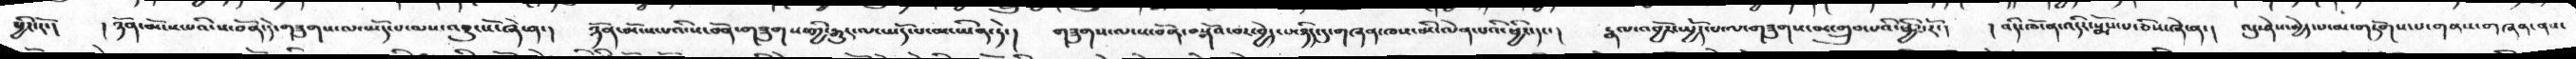ཕྱིར་རོ་།  །ཉོན་མོངས་པའི་ས་བོན་དེ་གཟུགས་ལ་ཡོད་པ་ལས་འབྱུང་ངོ་ཞེ་ན་།  ཉོན་མོངས་པའི་ས་བོན་གཟུགས་ཀྱི་རྒྱུད་ལ་ཡོད་པ་མ་ཡིན་ཏེ་།  གཟུགས་ལ་ས་བོན་བསྒོའ་བར་བྱེད་པ་ཉིད་དུ་གཞན་ཁས་མི་ལེན་པའི་ཕྱིར་དང་།   རྣལ་འབྱོར་སྤྱོད་པ་ལ་གཟུགས་མ་གྲུབ་པའི་ཕྱིར་རོ་།  །འདི་ཁོ་ན་འདིར་སྨོས་པ་ཅིས་ཞེ་ན་།  འདུ་ཤེས་མྱེད་པ་མ་གཏོགས་པ་གནས་གཞན་ནས་
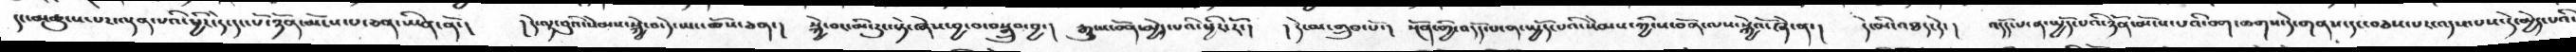དང་མཚུངས་པར་ལྡན་པའི་ཕྱིར་དེ་དང་པོ་ཉོན་མོངས་པ་ཅན་ཡིན་ནོ་།  །དེ་ལྟ་བུའི་སེམས་སྐྱེ་བ་དེ་ཡང་ཆོས་ཅན་།  སྐྱེ་བར་མི་རུང་སྟེ་ཞེས་བྱ་བ་བསྒྲུབ་བྱ་།  རྒྱུ་ས་བོན་མྱེད་པའི་ཕྱིར་རོ་།   །དེ་མ་གྲུབ་པོ་།  སྔོན་གྱི་འདོད་པ་ན་སྤྱོད་པའི་སེམས་ཀྱི་ས་བོན་ལས་སྐྱེའོ་ཞེ་ན་།   དེ་མི་འཐད་དེ་།  འདོད་པ་ན་སྤྱོད་པའི་ཉོན་མོངས་པའི་བག་ཆགས་དེ་གནས་དང་བཅས་པར་འདས་པས་དེ་མྱེད་པའི་
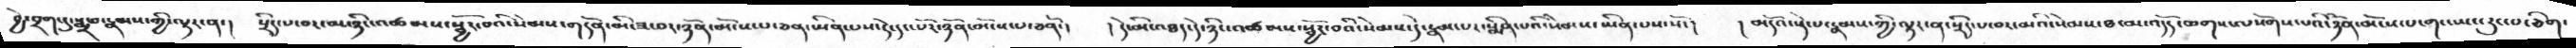བྱེ་བྲག་དུ་སྨྲ་བ་རྣམས་གྱི་ལྟར་ན་།  སྲིད་པ་བར་མ་ཉིང་འཚམས་སྦྱོར་བའི་སེམས་གདོན་མི་ཟ་བར་ཉོན་མོངས་པ་ཅན་ཡིན་པས་དེ་དང་པོར་ཉོན་མོངས་པ་ཅནོ་།  །དེ་མི་འཐད་དེ་ཉིང་འཚམས་སྦྱོར་བའི་སེམས་དེ་རྣམ་པར་སྨིན་པའི་སེམས་ཡིན་པས་སོ་།   །མདོའ་སྡེ་པ་རྣམས་ཀྱི་ལྟར་ན་སྲིད་པ་བར་མའི་སེམས་ཐ་མ་འདོད་ཆགས་ལསོགས་པའི་ཉོན་མོངས་པ་གང་ཡང་རུང་པ་ཅིག་
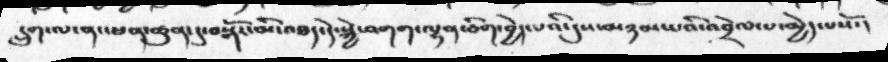དྲུག་ལ་ནང་ཕན་ཚུན་དུ་བསྒོར་མི་འཐད་དེ་སྐྱེ་འགག་ལྷན་ཅིག་བྱེད་པའི་དུས་མཉམ་པའི་འབྲེལ་པ་མྱེད་པསོ་།
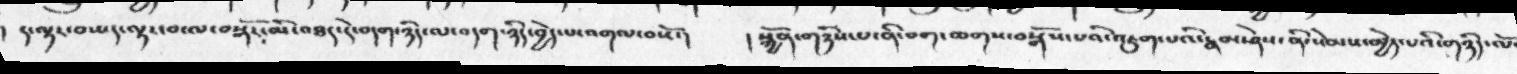།  ད་ལྟར་བཅད་ལྟར་བ་ལ་བསྒོར་མི་འཐད་དེ་བདག་ཉིད་ལ་བདག་ཉིད་བྱེད་པ་འགལ་བསོ་།    ། སྐྱོན་གཉིས་པ་ནི་བག་ཆགས་བསྒོམ་པའི་འཇུག་པའི་རྣམ་ཤེས་ནི་སེམས་མྱེད་པའི་གཉིད་ལོ་
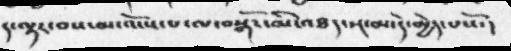ད་ལྟར་བས་མ་འོངས་པ་ལ་བསྒོར་མི་འཐད་སྔ་མ་དེ་མྱེད་པསོ་།
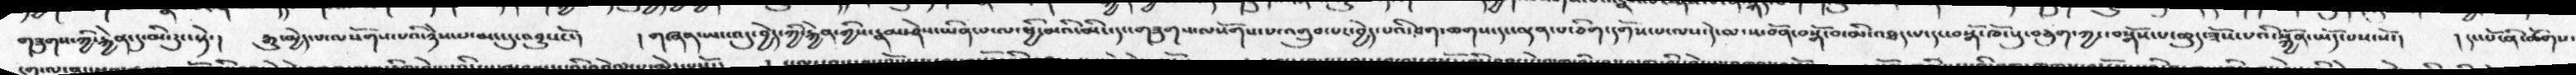གཟུགས་ཀྱི་རྐྱེན་དུ་མི་རུང་སྟེ་།   རྒྱུ་མྱེད་པ་ལསོགས་པའི་ཉེས་པ་མང་དུ་འབྱུང་ངོ་།   ། གཞན་ཡང་འདུ་བྱེད་ཀྱི་རྐྱེན་གྱིས་རྣམ་ཤེས་ཡིན་པ་ལ་ཕྱི་མའི་མིང་དང་གཟུགས་ལསོགས་པ་འགྲུབ་པར་བྱེད་པའི་བག་ཆགས་དང་ལྡན་པ་ཅིག་དགོས་པ་ལས་དེ་ལ་ས་བོན་བསྒོ་བ་མི་འཐད་པ་དང་བསྒོ་ཁོངསུ་བཅུག་ཀྱང་བསྒོས་པ་ཆུད་ཟོས་པའི་སྐྱོན་ཡོད་པས་སོ་།     ། དང་པོ་ནི་ཚོགས་
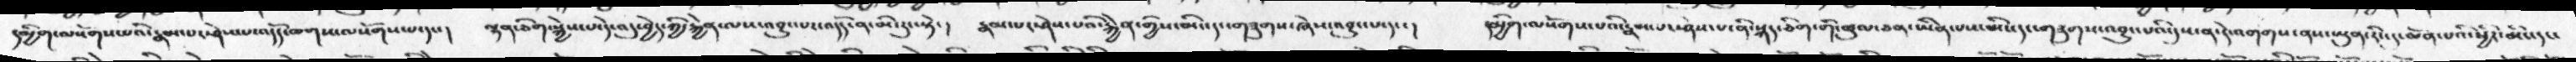དམྱིག་ལསོགས་པའི་རྣམ་པར་ཤེས་པ་འདོད་ཆགས་ལསོགས་པ་དང་།   ལྷན་ཅིག་སྐྱེས་པ་དེ་འདུ་བྱེད་ཀྱི་རྐྱེན་ལས་འབྱུང་བར་འདོད་ན་མི་རུང་སྟེ་།   རྣམ་པར་ཤེས་པའི་རྐྱེན་གྱིས་མིང་དང་གཟུགས་ཞེས་འབྱུང་པ་དང་།  དམྱིག་ལསོགས་པའི་རྣམ་པར་ཤེས་པ་ནི་སྐད་ཅིག་གི་ཚུལ་ཅན་ཡིན་པས་མིང་དང་གཟུགས་འབྱུང་པའི་དུས་ན་དེ་འགགས་ནས་ཡུན་རངི་དུ་ཆེན་པའི་ཕྱིར་མིང་དང་
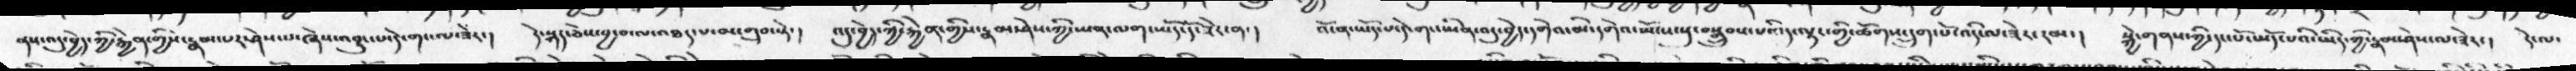ནས་འདུ་བྱེད་ཀྱི་རྐྱེན་གྱིས་རྣམ་པར་ཤེས་པ་ཞེས་འབྱུང་པ་དེ་གང་ལ་ཟེར་།   དེ་སྐད་ཅེས་བྱ་བ་ལ་འཐད་པ་མ་གྲུབ་སྟེ་།   འདུ་བྱེད་ཀྱི་རྐྱེན་གྱིས་རྣམ་ཤེས་ཀྱི་ཡན་ལག་ཡོད་དེ་ཟེར་ན་།  འོ་ན་ཡོད་པ་དེ་གང་ཡིན་འདུ་བྱེད་དགེའ་མི་དགེའ་ཡོངས་སུ་བསྒྲུབས་པའི་ད་ལྟར་གྱི་ཚོགས་དྲུག་པོ་འདི་ལ་ཟེར་རམ་།  སྐྱེ་གནས་ཀྱི་དང་པོ་ཡོད་པའི་ཡིད་ཀྱི་རྣམ་ཤེས་ལ་ཟེར་།  དེ་ལ་
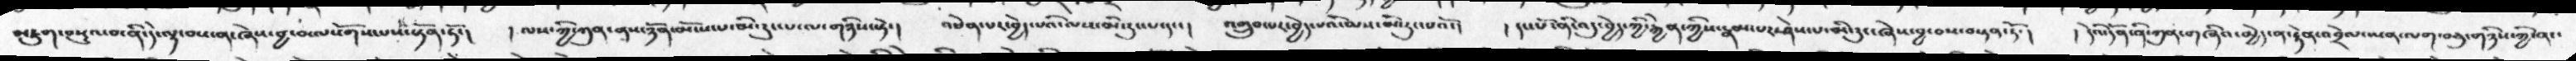མཇུག་བསྡུའ་བ་ནི་དེ་ལྟ་བས་ན་ཞེས་བྱ་བ་ལསོགས་པས་སྟོན་ནོ་།   ། ལས་ཀྱི་ཀུན་ནས་ཉོན་མོངས་པ་མི་རུང་པ་ལ་གཉིས་སྟེ་།  འཕེན་པར་བྱེད་པའི་ལས་མི་རུང་པ་དང་།  འགྲུབ་པར་བྱེད་པའི་ལས་མི་རུང་པའོ་།  ། དང་པོ་ནི་འདུ་བྱེད་ཀྱི་རྐྱེན་ཀྱིས་རྣམ་པར་ཤེས་པ་མི་རུང་ཞེས་བྱ་བས་བསྟན་ཏོ་།    ། དེའི་དོན་ནི་ཀུན་གཞིའ་མྱེད་ན་རྟེན་འབྲེལ་ཡན་ལག་བཅུ་གཉིས་ཀྱི་ནང་
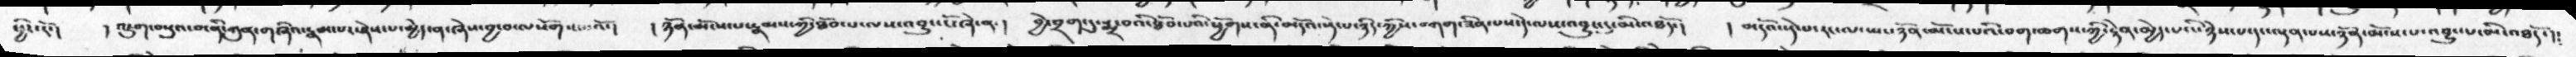ཕྱིར་རོ་།    ། འཇུག་བསྡུའ་བ་ནིཀུན་གཞིའ་རྣམ་པར་ཤེས་པ་མྱེད་ན་ཞེས་བྱ་བ་ལསོགས་པའོ་།   ། ཉོན་མོངས་པ་རྣམས་ཀྱི་ཐོབ་པ་ལས་འབྱུང་ངོ་ཞེ་ན་།   བྱེ་བྲག་དུ་སྨྲ་བའི་ཐོབ་པའི་ཕྱོགས་ནི་མདོའ་སྡེ་པ་ཉིད་ཀྱིས་བཀག་ཟིན་པས་དེ་ལས་འབྱུང་དུ་མི་འཐདོ་།   ། མདོའ་སྡེ་པ་རང་ལ་ཡང་ཉོན་མོངས་པའི་བག་ཆགས་ཀྱི་རྟེན་མྱེད་པའི་ཉེས་པ་དང་ལྡན་པས་ཉོན་མོངས་པ་འབྱུང་པ་མི་འཐདོ་།།
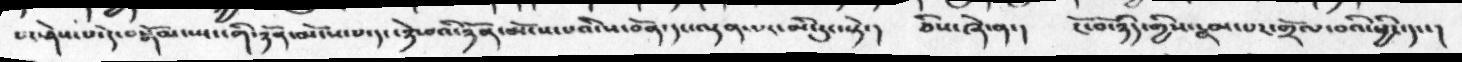པར་ཤེས་པ་དེ་བསྒོམ་སྤང་གི་ཉོན་མོངས་པ་དང་ཉེ་བའི་ཉོན་མོངས་པའི་ས་བོན་དང་ལྡན་པར་མི་རུང་སྟེ་།   ཅིས་ཞེ་ན་།  ངོ་བོ་ཉིད་ཀྱིས་རྣམ་པར་གྲོལ་བའི་ཕྱིར་དང་།
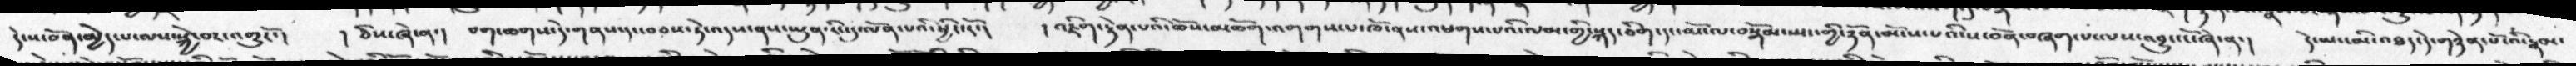དེ་ས་བོན་མྱེད་པ་ལས་སྐྱེ་བར་འགྱུརོ་།   ། ཅིས་ཞེ་ན་།  བག་ཆགས་དེ་གནས་དང་བབས་ཏེ་འདས་ནས་ཡུན་རིང་དུ་ལོན་པའི་ཕྱིར་རོ་།  ། འཇིག་རྟེན་པའི་ཆོས་མཆོག་འགགས་པ་ཁོ་ནས་འཕགས་པའི་ལམ་གྱི་སྐད་ཅིག་དང་མོ་ལ་བསྒོམ་སྤང་གྱི་ཉོན་མོངས་པའི་ས་བོན་བཞག་པ་ལས་འབྱུང་ངོ་ཞེ་ན་།    དེ་ཡང་མི་འཐད་དེ་གཉེན་པོ་འི་རྣམ་
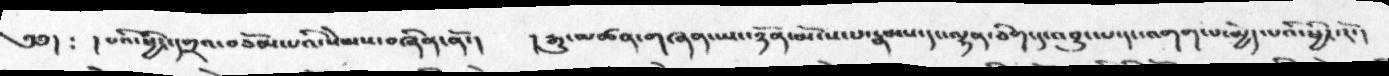༄༅།  ༴ ། པའི་ཕྱིར་དགྲའ་བཅོམ་པའི་སེམས་བཞིན་ནོ་།    ། རྒྱུ་མཚན་གཞན་ཡང་ཉོན་མོངས་པ་རྣམས་དང་ལྷན་ཅིག་དུ་འབྱུང་པ་དང་འགག་པ་མྱེད་པའི་ཕྱིར་རོ་།
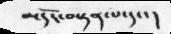མདོར་བསྟན་པ་དང་།
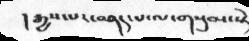།རྒྱས་པར་བཤད་པ་ལ་གསུམ་སྟེ
